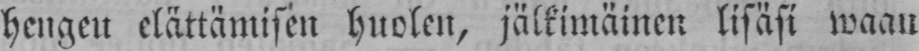hengen elättämisen huolen, jälkimäinen lisäsi waan
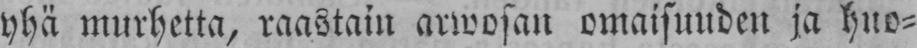yhä murhetta, raastain arwosan omaisuuden ja huo-
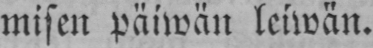misen päiwän leiwän.
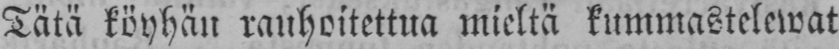Tätä köyhän rauhoitettua mieltä kummastelewat
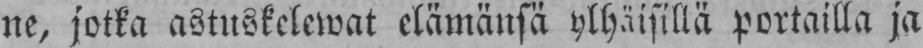ne, jotka astuskelewat elämänsä ylhäisillä portailla ja
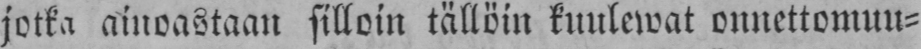jotka ainoastaan silloin tällöin kuulewat onnettomuu-
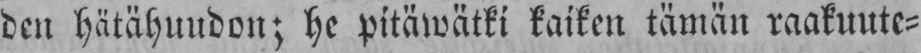den hätähuudon; he pitäwätki kaiken tämän raakuute-
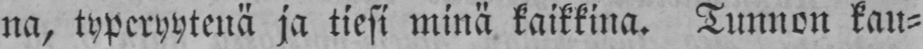na, typeryytenä ja tiesi minä kaikkina. Tunnon kau-
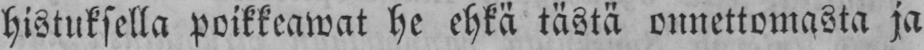histuksella poikkeawat he ehkä tästä ounettomasta ja
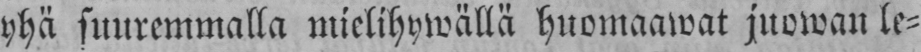yhä suuremmalla mielihywällä huomaawat juowan le-
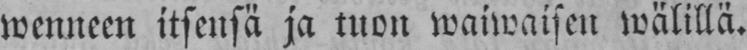wenneen itsensä ja tuon waiwaisen wälillä.
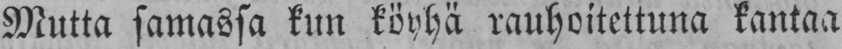Mutta samassa kun köyhä rauhoitettuna kantaa
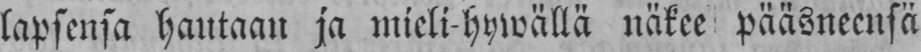lapsensa hautaan ja mieli-hywällä näkee pääsneensä
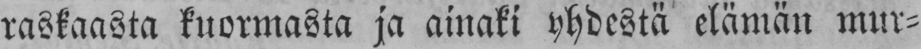raskaasta kuormasta ja ainaki yhdestä elämän mur-
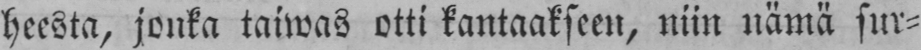heesta, jonka taiwas otti kantaakseen, niin nämä sur-
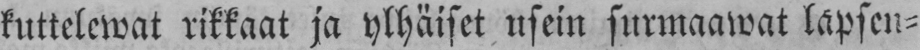kuttelewat rikkaat ja ylhäiset usein surmaawat lapsen-
